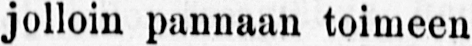jolloin pannaan toimeen
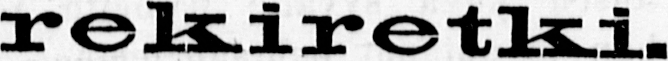rekiretki.
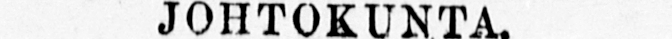JOHTOKUNTA.
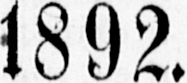1892.
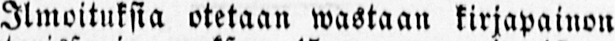Ilmoituksia otetaan wastaan kirjapainon
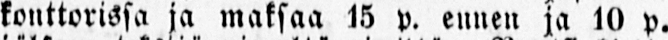konttorissa ja maksaa 15 p. eunen ja 10 p.
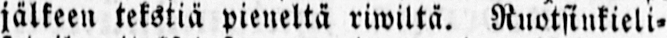jälkeen tekstiä pieneltä riwiltä. Ruotsinkieli-
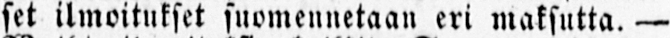set ilmoitukset suomennetaan eri maksutta. —
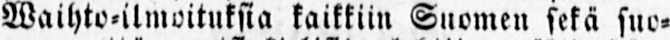Waihto-ilmoituksia kaikkiin Suomen sekä suo-
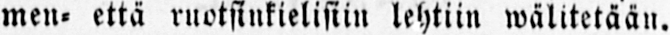men- että ruotsinkielisiin lehtiin wälitetään.
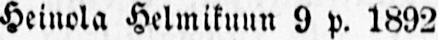Heinola Helmikuun 9 p. 1892.
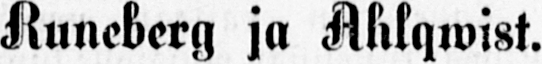Runeberg ja Ahlqwist.
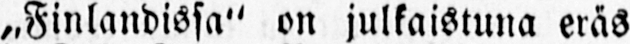„Finlandissa" on julkaistuna eräs
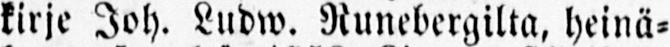kirje Joh. Ludw. Runebergiltä, heinä-
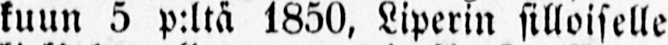kuun 5 p:ltä 1850, Liperin silloiselle
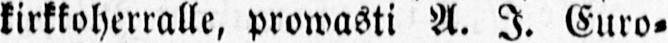kirkkoherralle, prowasti A. I. Euro-
